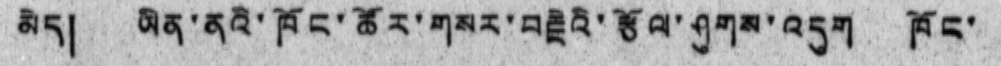མེད། ཡིན་ནའི་ཁོང་ཚོར་གསར་བརྗེའི་རྩོལ་ཤུགས་འདུག ཁོང་
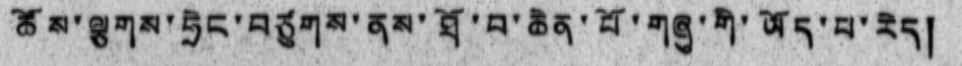ཚོས་ལྕགས་ཧྲིང་བཙུགས་ནས་ཐོ་བ་ཆེན་པོ་གཞུ་གི་ཡོད་པ་རེད།
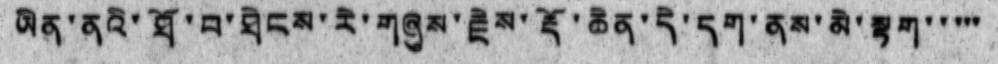ཡིན་ནའི་ཐོ་བ་ཐེངས་རེ་གཞུས་རྗེས་རྡོ་ཆེན་དེ་དག་ནས་མི་སྟག་་་་་
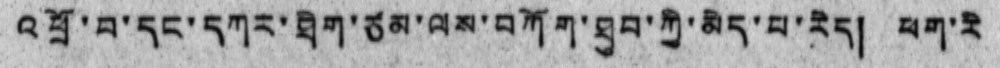འཕྲོ་བ་དང་དཀར་ཐིག་ཙམ་ལས་བཀོག་ཐུབ་ཀྱི་མེད་པ་རེད། ཕག་རི
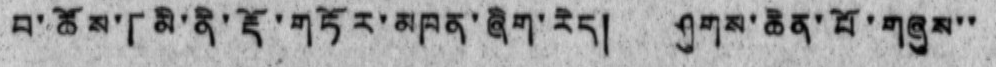བ་ཚོས་「མི་ནི་རྡོ་གཏོར་མཁན་ཞིག་རེད། ཤུགས་ཆེན་པོ་གཞུས་་
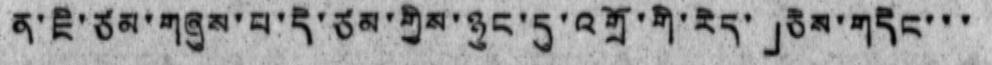ན་ཇི་ཙམ་གཞུས་པ་དེ་ཙམ་གྱིས་ཉུང་དུ་འགྲོ་གི་རེད་」ཅེས་གདེང་་་
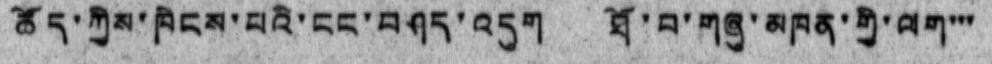ཚོད་ཀྱིས་ཁེངས་པའི་ངང་བཤད་འདུག ཐོ་བ་གཞུ་མཁན་གྱི་ལག་་་
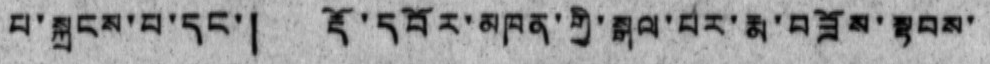པ་སྐྲངས་བ་དང་། རྡོ་དབོར་མཁན་གྱི་སྒལ་པར་རྨ་བཟོས་སྟབས་
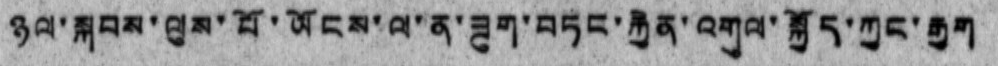ཉལ་སྐབས་ལུས་པོ་ཡོངས་ལ་ན་ཟུག་བཏང་རྐྱེན་འགུལ་སྐྱོད་ཀྱང་རྒྱག
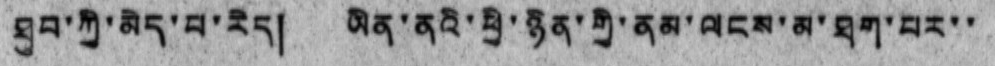ཐུབ་ཀྱི་མེད་པ་རེད། ཡིན་ནའི་ཕྱི་ཉིན་གྱི་ནམ་ལངས་མ་ཐག་པར་་
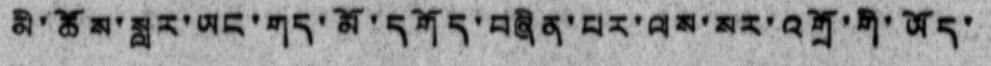མི་ཚོས་སླར་ཡང་གད་མོ་དགོད་བཞིན་པར་ལས་སར་འགྲོ་གི་ཡོད་
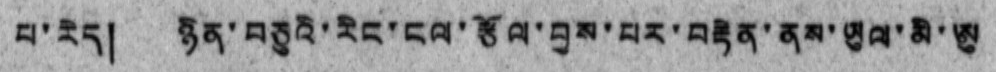པ་རེད། ཉིན་བཅུའི་རིང་ངལ་རྩོལ་བྱས་པར་བརྟེན་ནས་ཡུལ་མི་ཨུ
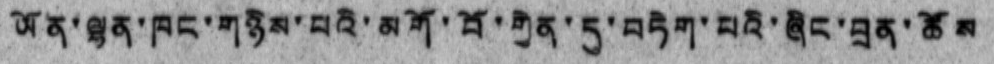ཡོན་ལྷན་ཁང་གཉིས་པའི་མགོ་བོ་གྱེན་དུ་བཏེག་པའི་ཞིང་བྲན་ཚོས
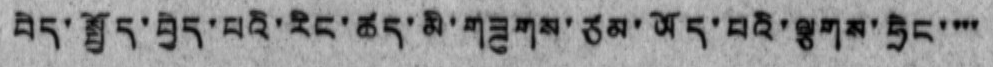བེད་སྤྱོད་བྱེད་པའི་རིང་ཚད་མི་གཟུགས་ཙམ་ཡོད་པའི་ལྕགས་ཧྲེང་་་་
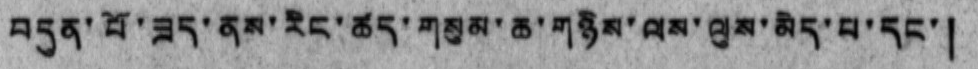བདུན་པོ་ཟད་ནས་རིང་ཚད་གསུམ་ཆ་གཉིས་ལས་ལུས་མེད་པ་དང་།
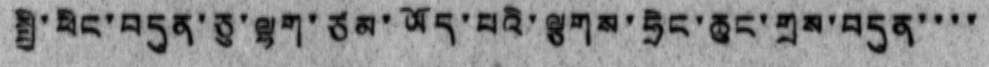སྤྱི་ཕིང་བདུན་ཅུ་ལྷག་ཙམ་ཡོད་པའི་ལྕགས་ཧྲེང་ཆུང་གྲས་བདུན་་་་
